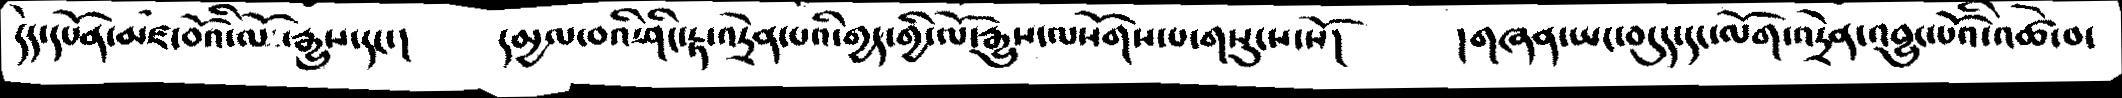དེད་དཔོན་མཛ་བོའི་ལོ ་རྒྱུས་དང་།    དམྱལ་བའི་ཤིང་རྟ་འདྲེན་པའི་གྱད་གྱི་ལོ་རྒྱུས་ལསོགས་པ་གསུངས་སོ།   །གཞན་ཡང་བདུད་དང་ལོག་འདྲེན་འབྱུང་པོའི་འཚེ་བ་
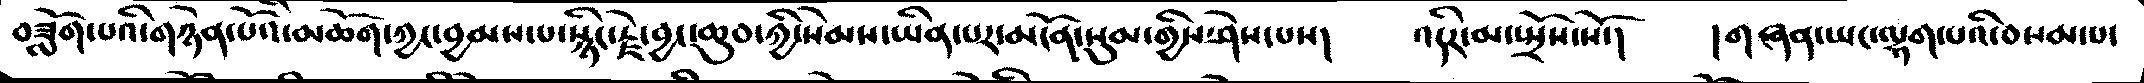བཟློག་པའི་གཉེན་པོའི་མཆོག་ཀྱང་བྱམས་པ་སྙིང་རྗེ་བྱང་ཆུབ་ཀྱི་སེམས་ཡིན་པར་མངོན་སུམ་གྱིས་ཤེས་པས།   འདིར་མ་སྤྲོས་སོ་།   །གཞན་ཡང་ལྷག་པའི་བསམ་པ་
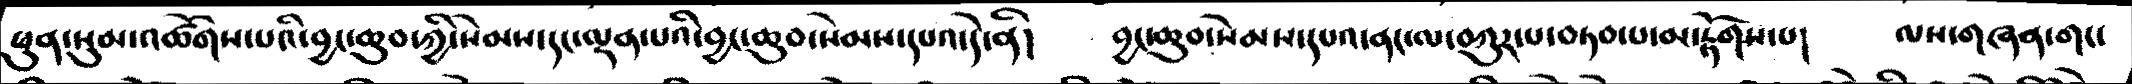ཕུན་སུམ་འཚོགས་པའི་བྱང་ཆུབ་ཀྱི་སེམས་དང་ལྡན་པའི་བྱང་ཆུབ་སེམས་དཔའ་དེ་ནི།   བྱང་ཆུབ་སེམས་དཔའ་ནང་ལ་བཀུར་པ་བཏབ་པ་མ་རྟོགས་པ།   ལས་གཞན་གང་
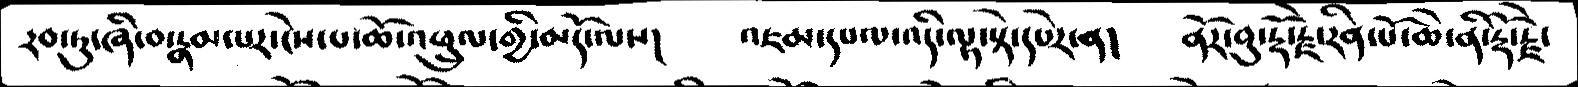རབ་ཏུ་ཞི་བ་རྣམ་པར་ངེས་པ་ཆོ་འཕྲུལ་གྱི་མདོ་ལས།    འཇམ་དཔལ་འདི་ལྟ་སྟེ་དཔེར་ན།  ནོར་བུ་རྡོ་རྗེ་རིན་པོ་ཆེ་ནི་རྡོ་རྗེ་
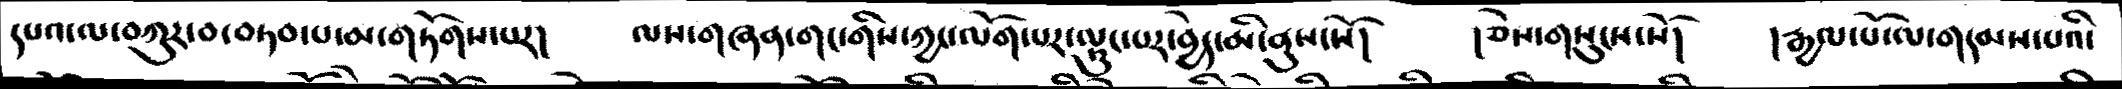དཔའ་ལ་བཀུར་བ་བཏབ་པ་མ་གཏོགས་པར།   ལས་གཞན་གང་གིས་ཀྱང་ལོག་པར་ལྟུང་པར་བྱེད་མི་ནུས་སོ།   །ཅེས་གསུངས་སོ་།   །རྒྱལ་པོ་ལ་གདམས་པའི་
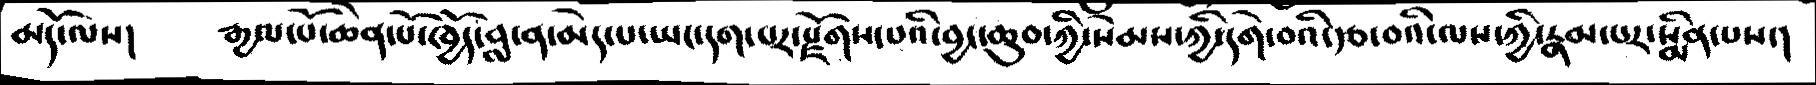མདོ་ལས།     རྒྱལ་པོ་ཆེན་པོ་ཁྱོད་བླ་ན་མེད་པ་ཡང་དག་པར་རྫོགས་པའི་བྱང་ཆུབ་ཀྱི་སེམས་ཀྱི་དགེ་བའི་རྩ་བའི་ལས་ཀྱི་རྣམ་པར་སྨིན་པས་།
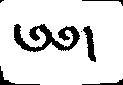༄༅།
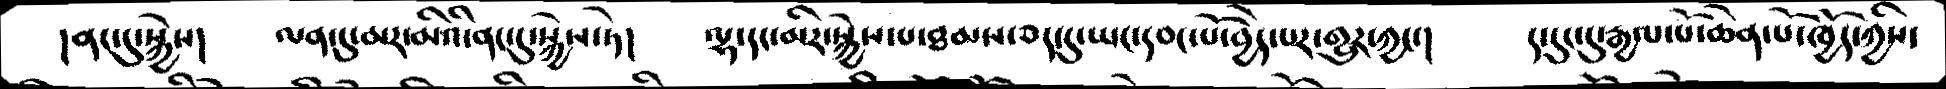།ནང་དུ་སྐྱེས།   ལན་དུ་མར་མིའི་ནང་དུ་སྐྱེས་ཏེ།  ལྷ་དང་མིར་སྐྱེས་པ་ཐམས་ཅད་དུ་ཡང་དབང་པོ་བྱེད་པར་གྱུར་ཀྱང་།   ད་དུང་དུ་རྒྱལ་པོ་ཆེན་པོ་ཁྱོད་ཀྱིས་
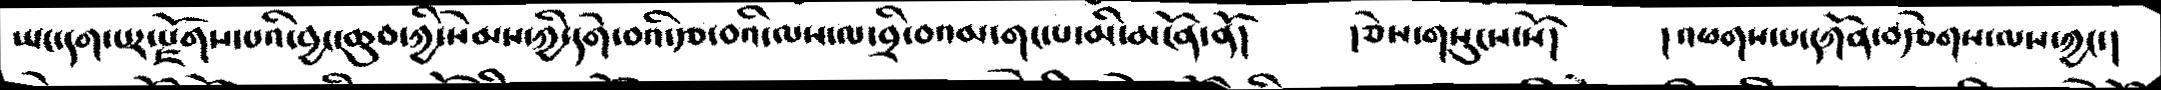ཡང་དག་པར་རྫོགས་པའི་བྱང་ཆུབ་ཀྱི་སེམས་ཀྱི་དགེ་བའི་རྩ་བའི་ལས་ལ་བྲི་བའམ་གང་པ་མི་མངོན་ནོ།   །ཅེས་གསུངས་སོ།   །འཕགས་པ་དཀོན་བརྩེགས་ལས་ཀྱང་།
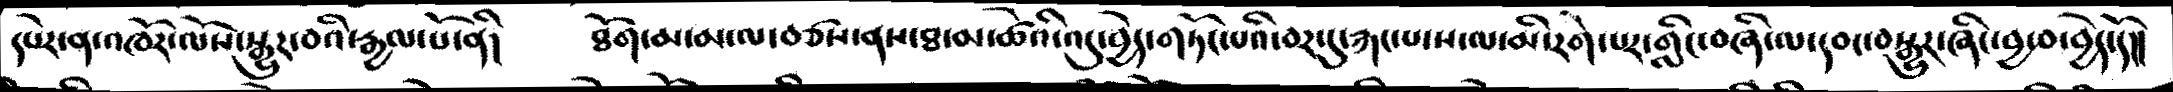དཔེར་ན་འཁོར་ལོས་སྒྱུར་བའི་རྒྱལ་པོ་ནི།   ཐོག་མ་མ་ལ་བཙས་ནས་ཐ་མ་ཚེའི་འདུ་བྱེད་གཏོང་པའི་བར་དུ་རྐང་པ་ས་ལ་མི་རེག་པར་གླིང་བཞི་ལ་དབང་བསྒྱུར་ཞིང་བྱ་བ་བྱེད་དོ།།
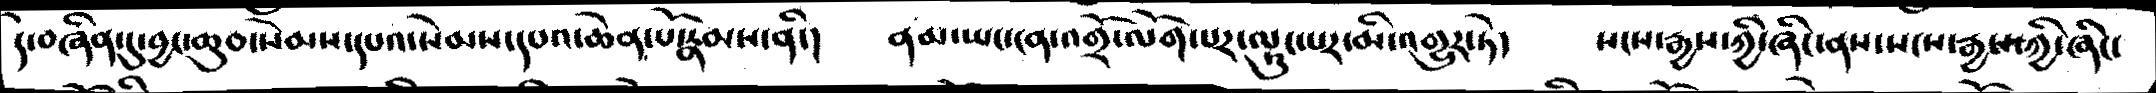དེ་བཞིན་དུ་བྱང་ཆུབ་སེམས་དཔའ་སེམས་དཔའ་ཆེན་པོ་རྣམས་ནི་། ནམ་ཡང་ངན་འགྲོ་ལོག་པར་ལྟུང་པར་མི་འགྱུར་ཏེ་། སངས་རྒྱས་ཀྱི་ཞིང་ནས་སངས་རྒྱས་ཀྱི་ཞིང་
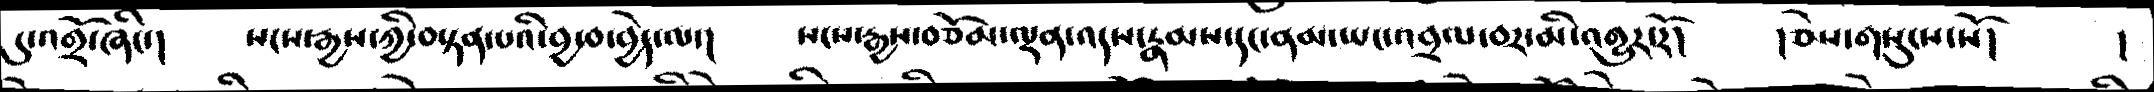དུ་འགྲོ་ཞིང་།   སངས་རྒྱས་ཀྱི་བསྟན་པའི་བྱ་བ་བྱེད་ལ་།    སངས་རྒྱས་བཅོམ་ལྡན་འདས་རྣམས་དང་ནམ་ཡང་འབྲལ་བར་མི་འགྱུར་རོ།   །ཅེས་གསུངས་སོ།   །
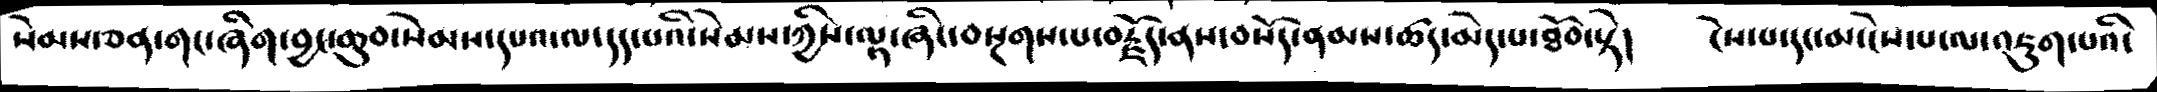སེམས་ཅན་གང་ཞིག་བྱང་ཆུབ་སེམས་དཔའ་ལ་དད་པའི་སེམས་ཀྱིས་ལྟ་ཞིང་བསྔགས་པ་བརྗོད་ནས་བསོད་ནམས་ཚད་མེད་པ་ཐོབ་སྟེ་།   ངེས་པ་དང་མ་ངེས་པ་ལ་འཇུག་པའི་
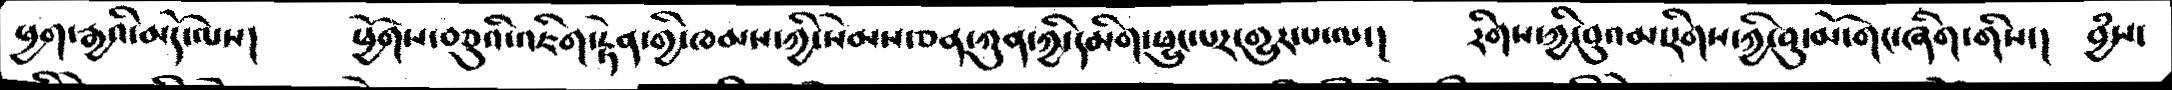ཕྱག་རྒྱའི་མདོ་ལས་།   ཕྱོགས་བཅུའི་འཇིག་རྟེན་ཀྱི་ཁམས་ཀྱི་སེམས་ཅན་ཀུན་ཀྱི་དམིག་ཕྱུང་པར་གྱུར་པ་ལ་།   རིགས་ཀྱི་བུའམ་རིགས་ཀྱི་བུ་མོ་གང་ཞིག་གིས་།   བྱཾས་
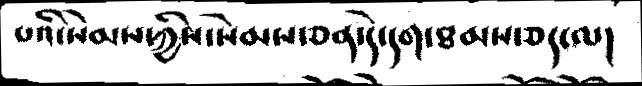པའི་སེམས་ཀྱིས་སེམས་ཅན་དེ་དག་ཐམས་ཅད་ལ།
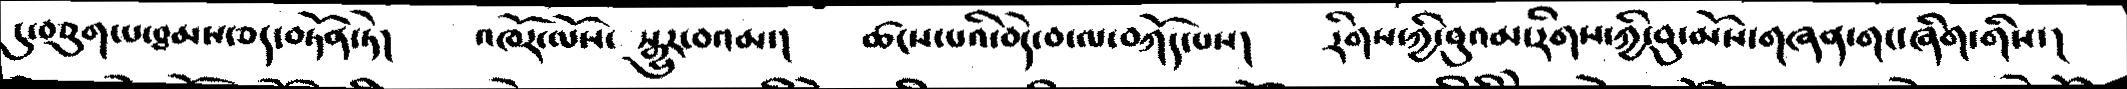དུ་བཅུག་པ་ཐམས་ཅད་བཏོན་ཏེ།   འཁོར་ལོས་ སྒྱུར་བའམ་།   ཚངས་པའི་བདེ་བ་ལ་བཀོད་པས།   རིགས་ཀྱི་བུའམ་རིགས་ཀྱི་བུ་མོས་གཞན་གང་ཞིག་གིས་།
